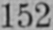152
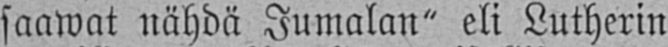saawat nähdä Jumalan" eli Lutherin
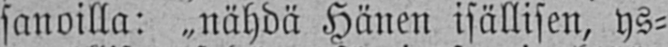sanoilla: ˶nähdä Hänen isällisen, ys-
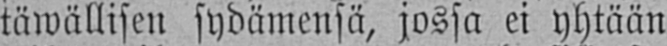täwällisen sydämensä, jossa ei yhtään
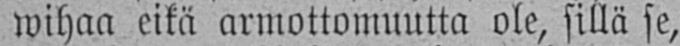wihaa eikä armottomuutta ole, sillä se,
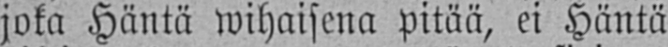joka Häntä wihaisena pitää, ei Häntä
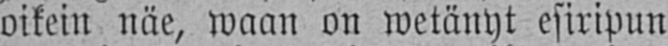oikein näe, waan on wetänyt esiripun
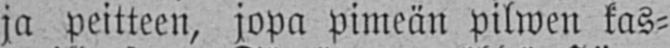ja peitteen, jopa pimeän pilwen kas-
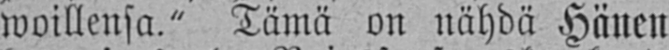woillensa." Tämä on nähdä Hänen
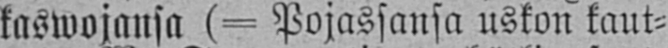kaswojansa (= Pojassansa uskon kaut-
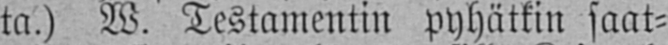ta.) W. Testamentin pyhätkin saat-
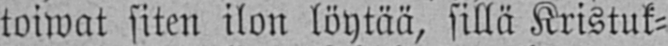toiwat siten ilon löytää, sillä Kristuk-
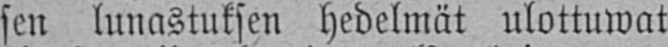sen lunastuksen hedelmät ulottuwat
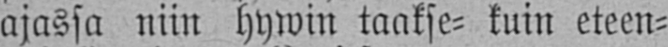ajassa niin hywin taakse- kuin eteen-
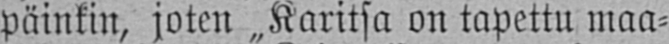päinkin, joten ˶Karitsa on tapettu maa-
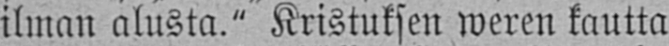ilman alusta." Kristuksen weren kautta
